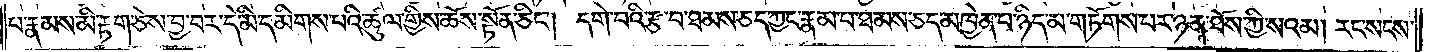པ་རྣམས་མི་རྟག་ཅེས་བྱ་བར་དེ་མི་དམིགས་པའི་ཚུལ་གྱིས་ཆོས་སྟོན་ཅིང༌། དགེ་བའི་རྩ་བ་ཐམས་ཅད་ཀྱང་རྣམ་པ་ཐམས་ཅད་མཁྱེན་པ་ཉིད་མ་གཏོགས་པར་ཉན་ཐོས་ཀྱི་སའམ། རང་སངས་
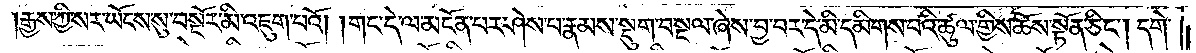རྒྱས་ཀྱི་སར་ཡོངས་སུ་བསྔོར་མི་འཇུག་པའོ། །གང་དེ་ལ་མངོན་པར་ཤེས་པ་རྣམས་སྡུག་བསྔལ་ཞེས་བྱ་བར་དེ་མི་དམིགས་པའི་ཚུལ་གྱིས་ཆོས་སྟོན་ཅིང༌། དགེ་
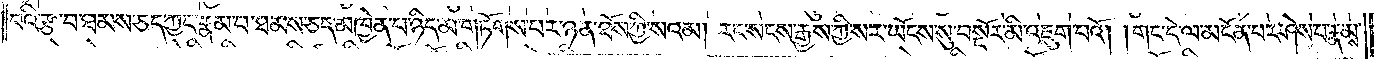བའི་རྩ་བ་ཐམས་ཅད་ཀྱང་རྣམ་པ་ཐམས་ཅད་མཁྱེན་པ་ཉིད་མ་གཏོགས་པར་ཉན་ཐོས་ཀྱི་སའམ། རང་སངས་རྒྱས་ཀྱི་སར་ཡོངས་སུ་བསྔོར་མི་འཇུག་པའོ། །གང་དེ་ལ་མངོན་པར་ཤེས་པ་རྣམས་
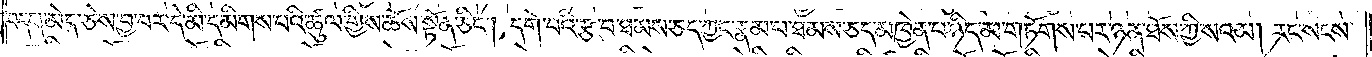བདག་མེད་ཅེས་བྱ་བར་དེ་མི་དམིགས་པའི་ཚུལ་གྱིས་ཆོས་སྟོན་ཅིང༌། དགེ་བའི་རྩ་བ་ཐམས་ཅད་ཀྱང་རྣམ་པ་ཐམས་ཅད་མཁྱེན་པ་ཉིད་མ་གཏོགས་པར་ཉན་ཐོས་ཀྱི་སའམ། རང་སངས་
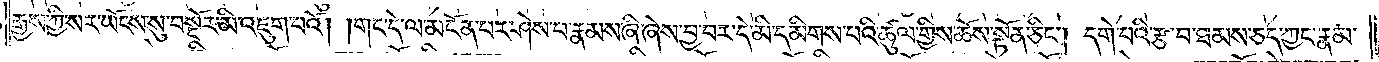རྒྱས་ཀྱི་སར་ཡོངས་སུ་བསྔོར་མི་འཇུག་པའོ། །གང་དེ་ལ་མངོན་པར་ཤེས་པ་རྣམས་ཞི་ཞེས་བྱ་བར་དེ་མི་དམིགས་པའི་ཚུལ་གྱིས་ཆོས་སྟོན་ཅིང༌། དགེ་བའི་རྩ་བ་ཐམས་ཅད་ཀྱང་རྣམ་
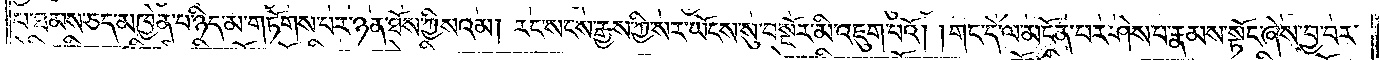པ་ཐམས་ཅད་མཁྱེན་པ་ཉིད་མ་གཏོགས་པར་ཉན་ཐོས་ཀྱི་སའམ། རང་སངས་རྒྱས་ཀྱི་སར་ཡོངས་སུ་བསྔོར་མི་འཇུག་པའོ། །གང་དེ་ལ་མངོན་པར་ཤེས་པ་རྣམས་སྟོང་ཞེས་བྱ་བར་
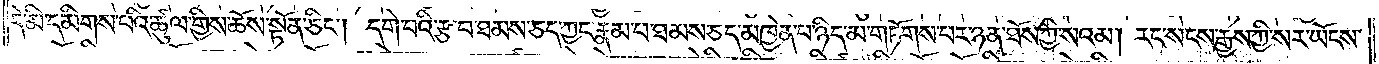དེ་མི་དམིགས་པའི་ཚུལ་གྱིས་ཆོས་སྟོན་ཅིང༌། དགེ་བའི་རྩ་བ་ཐམས་ཅད་ཀྱང་རྣམ་པ་ཐམས་ཅད་མཁྱེན་པ་ཉིད་མ་གཏོགས་པར་ཉན་ཐོས་ཀྱི་སའམ། རང་སངས་རྒྱས་ཀྱི་སར་ཡོངས་
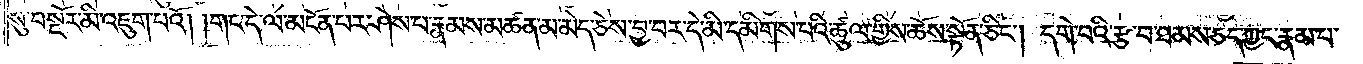སུ་བསྔོར་མི་འཇུག་པའོ། །གང་དེ་ལ་མངོན་པར་ཤེས་པ་རྣམས་མཚན་མ་མེད་ཅེས་བྱ་བར་དེ་མི་དམིགས་པའི་ཚུལ་གྱིས་ཆོས་སྟོན་ཅིང༌། དགེ་བའི་རྩ་བ་ཐམས་ཅད་ཀྱང་རྣམ་པ་
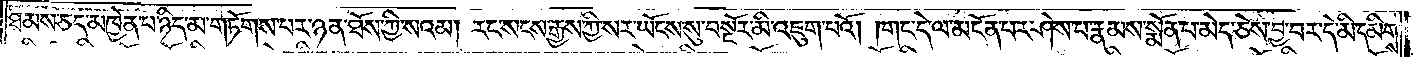ཐམས་ཅད་མཁྱེན་པ་ཉིད་མ་གཏོགས་པར་ཉན་ཐོས་ཀྱི་སའམ། རང་སངས་རྒྱས་ཀྱི་སར་ཡོངས་སུ་བསྔོར་མི་འཇུག་པའོ། །གང་དེ་ལ་མངོན་པར་ཤེས་པ་རྣམས་སྨོན་པ་མེད་ཅེས་བྱ་བར་དེ་མི་དམིགས་
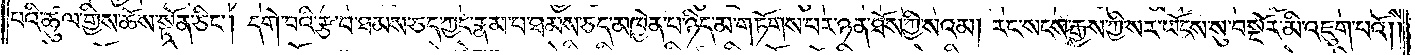པའི་ཚུལ་གྱིས་ཆོས་སྟོན་ཅིང༌། དགེ་བའི་རྩ་བ་ཐམས་ཅད་ཀྱང་རྣམ་པ་ཐམས་ཅད་མཁྱེན་པ་ཉིད་མ་གཏོགས་པར་ཉན་ཐོས་ཀྱི་སའམ། རང་སངས་རྒྱས་ཀྱི་སར་ཡོངས་སུ་བསྔོར་མི་འཇུག་པའོ། །
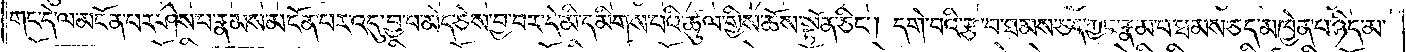གང་དེ་ལ་མངོན་པར་ཤེས་པ་རྣམས་མངོན་པར་འདུ་བྱ་བ་མེད་ཅེས་བྱ་བར་དེ་མི་དམིགས་པའི་ཚུལ་གྱིས་ཆོས་སྟོན་ཅིང༌། དགེ་བའི་རྩ་བ་ཐམས་ཅད་ཀྱང་རྣམ་པ་ཐམས་ཅད་མཁྱེན་པ་ཉིད་མ་
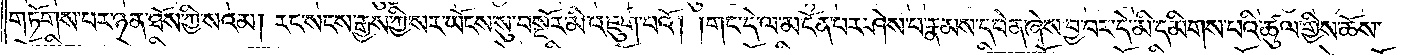གཏོགས་པར་ཉན་ཐོས་ཀྱི་སའམ། རང་སངས་རྒྱས་ཀྱི་སར་ཡོངས་སུ་བསྔོར་མི་འཇུག་པའོ། །གང་དེ་ལ་མངོན་པར་ཤེས་པ་རྣམས་དབེན་ཞེས་བྱ་བར་དེ་མི་དམིགས་པའི་ཚུལ་གྱིས་ཆོས་
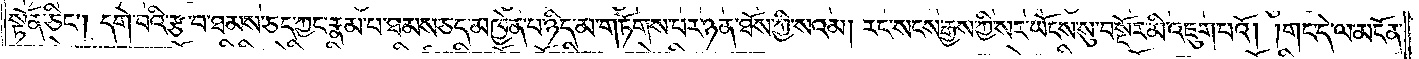སྟོན་ཅིང༌། དགེ་བའི་རྩ་བ་ཐམས་ཅད་ཀྱང་རྣམ་པ་ཐམས་ཅད་མཁྱེན་པ་ཉིད་མ་གཏོགས་པར་ཉན་ཐོས་ཀྱི་སའམ། རང་སངས་རྒྱས་ཀྱི་སར་ཡོངས་སུ་བསྔོར་མི་འཇུག་པའོ། །གང་དེ་ལ་མངོན་
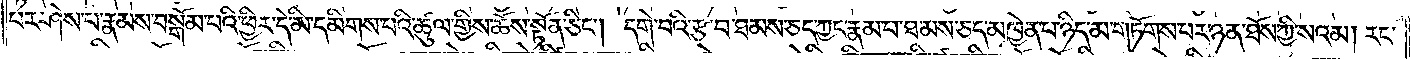པར་ཤེས་པ་རྣམས་བསྒོམ་པའི་ཕྱིར་དེ་མི་དམིགས་པའི་ཚུལ་གྱིས་ཆོས་སྟོན་ཅིང༌། དགེ་བའི་རྩ་བ་ཐམས་ཅད་ཀྱང་རྣམ་པ་ཐམས་ཅད་མཁྱེན་པ་ཉིད་མ་གཏོགས་པར་ཉན་ཐོས་ཀྱི་སའམ། རང་
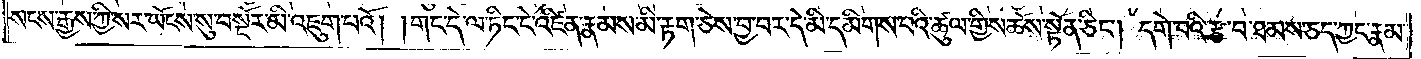སངས་རྒྱས་ཀྱི་སར་ཡོངས་སུ་བསྔོར་མི་འཇུག་པའོ། །གང་དེ་ལ་ཏིང་ངེ་འཛིན་རྣམས་མི་རྟག་ཅེས་བྱ་བར་དེ་མི་དམིགས་པའི་ཚུལ་གྱིས་ཆོས་སྟོན་ཅིང༌། དགེ་བའི་རྩ་བ་ཐམས་ཅད་ཀྱང་རྣམ་
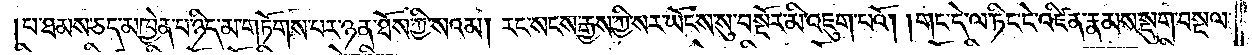པ་ཐམས་ཅད་མཁྱེན་པ་ཉིད་མ་གཏོགས་པར་ཉན་ཐོས་ཀྱི་སའམ། རང་སངས་རྒྱས་ཀྱི་སར་ཡོངས་སུ་བསྔོར་མི་འཇུག་པའོ། །གང་དེ་ལ་ཏིང་ངེ་འཛིན་རྣམས་སྡུག་བསྔལ་
